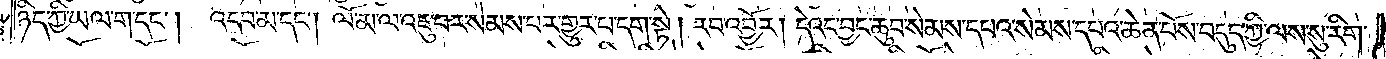ཉིད་ཀྱི་ཡལ་ག་དང༌། འདབ་མ་དང༌། ལོ་མ་ལ་འཇུ་བར་སེམས་པར་གྱུར་པ་དག་སྟེ། རབ་འབྱོར། དེའང་བྱང་ཆུབ་སེམས་དཔའི་སེམས་དཔའ་ཆེན་པོས་བདུད་ཀྱི་ལས་སུ་རིག་
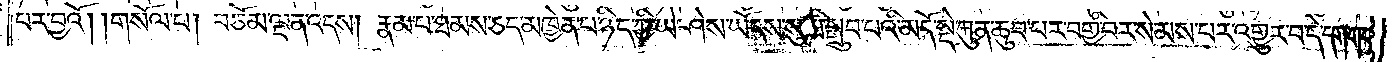པར་བྱའོ། །གསོལ་པ། བཅོམ་ལྡན་འདས། རྣམ་པ་ཐམས་ཅད་མཁྱེན་པ་ཉིད་ཀྱི་ཡེ་ཤེས་ཡོངས་སུ་མི་སྒྲུབ་པའི་མདོ་སྡེ་ཀུན་ཆུབ་པར་བགྱི་བར་སེམས་པར་འགྱུར་བ་དེ་དག་གང་
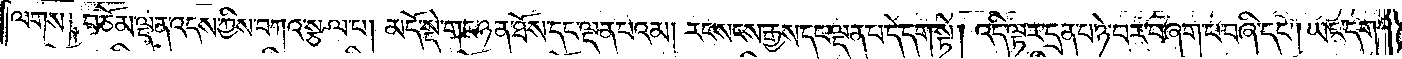ལགས། བཅོམ་ལྡན་འདས་ཀྱིས་བཀའ་སྩལ་པ། མདོ་སྡེ་གང་ཉན་ཐོས་དང་ལྡན་པའམ། རང་སངས་རྒྱས་དང་ལྡན་པ་དེ་དག་སྟེ། འདི་ལྟར་དྲན་པ་ཉེ་བར་བཞག་པ་བཞི་དང༌། ཡང་དག་
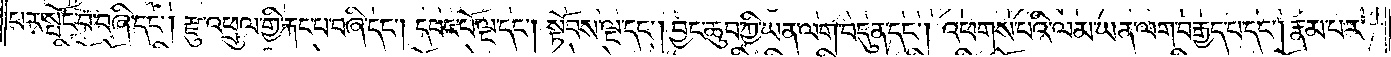པར་སྤོང་བ་བཞི་དང༌། རྫུ་འཕྲུལ་གྱི་རྐང་པ་བཞི་དང༌། དབང་པོ་ལྔ་དང༌། སྟོབས་ལྔ་དང༌། བྱང་ཆུབ་ཀྱི་ཡན་ལག་བདུན་དང༌། འཕགས་པའི་ལམ་ཡན་ལག་བརྒྱད་པ་དང༌། རྣམ་པར་
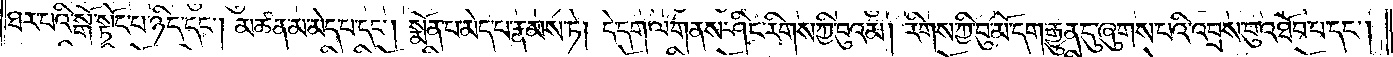ཐར་པའི་སྒོ་སྟོང་པ་ཉིད་དང༌། མཚན་མ་མེད་པ་དང༌། སྨོན་པ་མེད་པ་རྣམས་ཏེ། དེ་དག་ལ་གནས་ཤིང་རིགས་ཀྱི་བུའམ། རིགས་ཀྱི་བུ་མོ་དག་རྒྱུན་དུ་ཞུགས་པའི་འབྲས་བུ་འཐོབ་པ་དང༌།
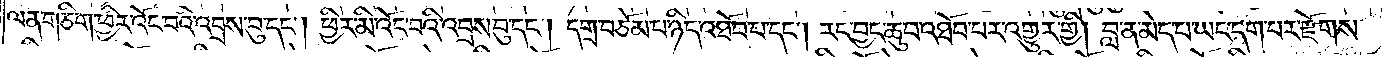ལན་གཅིག་ཕྱིར་འོང་བའི་འབྲས་བུ་དང༌། ཕྱིར་མི་འོང་བའི་འབྲས་བུ་དང༌། དགྲ་བཅོམ་པ་ཉིད་འཐོབ་པ་དང༌། རང་བྱང་ཆུབ་འཐོབ་པར་འགྱུར་གྱི། བླ་ན་མེད་པ་ཡང་དག་པར་རྫོགས་
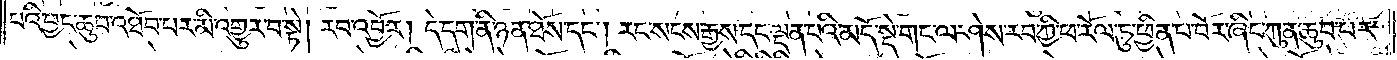པའི་བྱང་ཆུབ་འཐོབ་བར་མི་འགྱུར་བ་སྟེ། རབ་འབྱོར། དེ་དག་ནི་ཉན་ཐོས་དང༌། རང་སངས་རྒྱས་དང་ལྡན་པའི་མདོ་སྡེ་གང་ལ་ཤེས་རབ་ཀྱི་ཕ་རོལ་ཏུ་ཕྱིན་པ་བོར་ཞིང་ཀུན་ཆུབ་པར་
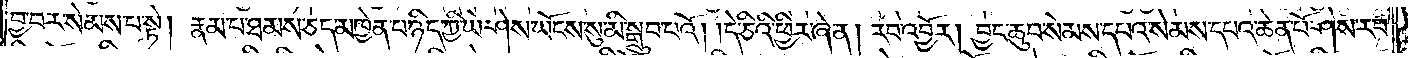བྱ་བར་སེམས་པ་སྟེ། རྣམ་པ་ཐམས་ཅད་མཁྱེན་པ་ཉིད་ཀྱི་ཡེ་ཤེས་ཡོངས་སུ་མི་སྒྲུབ་པའོ། །དེ་ཅིའི་ཕྱིར་ཞེ་ན། རབ་འབྱོར། བྱང་ཆུབ་སེམས་དཔའ་སེམས་དཔའ་ཆེན་པོ་ཤེས་རབ་
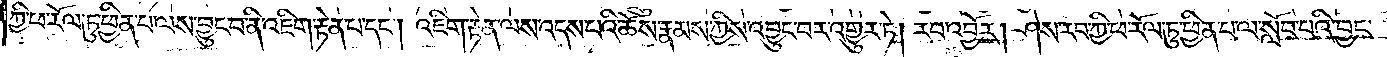ཀྱི་ཕ་རོལ་ཏུ་ཕྱིན་པ་ལས་བྱུང་བ་ནི་འཇིག་རྟེན་པ་དང༌། འཇིག་རྟེན་ལས་འདས་པའི་ཆོས་རྣམས་ཀྱིས་འབྱུང་བར་འགྱུར་ཏེ། རབ་འབྱོར། ཤེས་རབ་ཀྱི་ཕ་རོལ་ཏུ་ཕྱིན་པ་ལ་སློབ་པའི་བྱང་
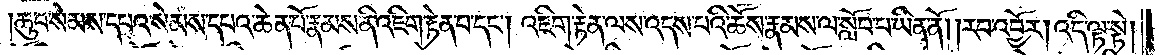ཆུབ་སེམས་དཔའ་སེམས་དཔའ་ཆེན་པོ་རྣམས་ནི་འཇིག་རྟེན་པ་དང༌། འཇིག་རྟེན་ལས་འདས་པའི་ཆོས་རྣམས་ལ་སློབ་པ་ཡིན་ནོ། །རབ་འབྱོར། འདི་ལྟ་སྟེ།
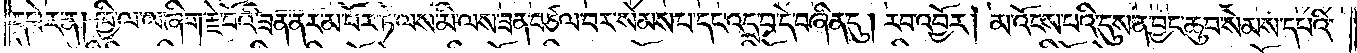དཔེར་ན། ཁྱི་ལ་ལ་ཞིག་རྗེ་བོའི་ཟན་ནར་མ་བོར་ཏེ་ལས་མི་ལས་ཟན་བཙལ་བར་སེམས་པ་དང་འདྲ་བ་དེ་བཞིན་དུ། རབ་འབྱོར། མ་འོངས་པའི་དུས་ན་བྱང་ཆུབ་སེམས་དཔའི་
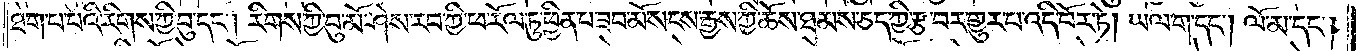ཐེག་པ་པའི་རིགས་ཀྱི་བུ་དང༌། རིགས་ཀྱི་བུ་མོ་ཤེས་རབ་ཀྱི་ཕ་རོལ་ཏུ་ཕྱིན་པ་ཟབ་མོ་སངས་རྒྱས་ཀྱི་ཆོས་ཐམས་ཅད་ཀྱི་རྩ་བར་གྱུར་པ་འདི་བོར་ཏེ། ཡལ་ག་དང༌། ལོ་མ་དང༌།
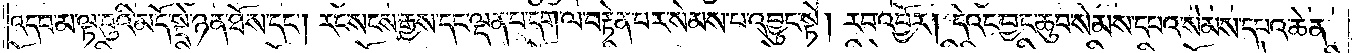འདབ་མ་ལྟ་བུའི་མདོ་སྡེ་ཉན་ཐོས་དང༌། རང་སངས་རྒྱས་དང་ལྡན་པ་དག་ལ་བརྟེན་པར་སེམས་པ་འབྱུང་སྟེ། རབ་འབྱོར། དེའང་བྱང་ཆུབ་སེམས་དཔའ་སེམས་དཔའ་ཆེན་
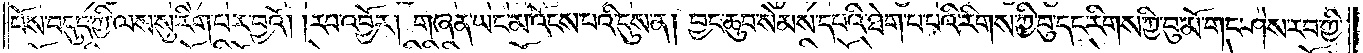པོས་བདུད་ཀྱི་ལས་སུ་རིག་པར་བྱའོ། རབ་འབྱོར། གཞན་ཡང་མ་འོངས་པའི་དུས་ན། བྱང་ཆུབ་སེམས་དཔའི་ཐེག་པ་པའི་རིགས་ཀྱི་བུ་དང་རིགས་ཀྱི་བུ་མོ་གང་ཤེས་རབ་ཀྱི་
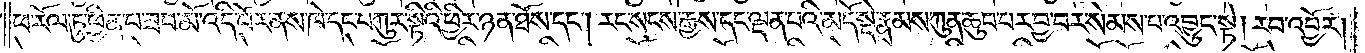ཕ་རོལ་ཏུ་ཕྱིན་པ་ཟབ་མོ་འདི་བོར་ནས་ཁེ་དང་བཀུར་སྟིའི་ཕྱིར་ཉན་ཐོས་དང༌། རང་སངས་རྒྱས་དང་ལྡན་པའི་མདོ་སྡེ་རྣམས་ཀུན་ཆུབ་པར་བྱ་བར་སེམས་པ་འབྱུང་སྟེ། རབ་འབྱོར།
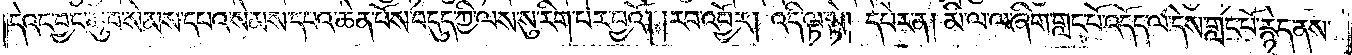དེའང་བྱང་ཆུབ་སེམས་དཔའ་སེམས་དཔའ་ཆེན་པོས་བདུད་ཀྱི་ལས་སུ་རིག་པར་བྱའོ། །རབ་འབྱོར། འདི་ལྟ་སྟེ། དཔེར་ན། མི་ལ་ལ་ཞིག་གླང་པོ་འདོད་ལ་དེས་གླང་པོ་རྙེད་ནས་
